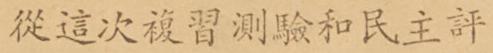從這次複習測驗和民族評
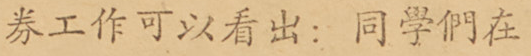券工作可以看出：同學們在
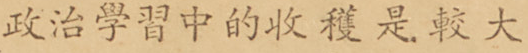政治學習中的收穫是較大
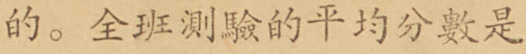的。全半測驗的平均分數是
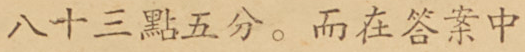八十三點五分。而在答案中
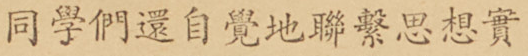同學們還自覺地聯繫思想實
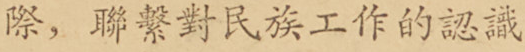際，聯繫對民族工作的認識
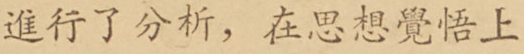進行了分析，在思想覺悟上
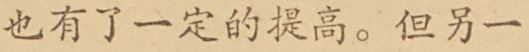也有了一定的提高。但另一
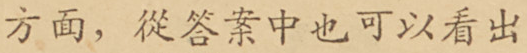方面，從答案中也可以看出
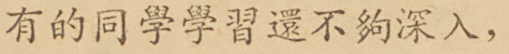有的同學學習還不夠深入，
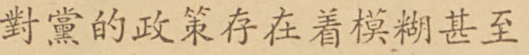對黨的政策存在着模糊甚至
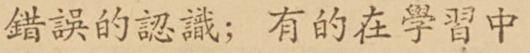錯誤的認識；有的在學習中
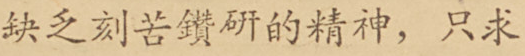缺乏刻苦鑽研的精神，只求
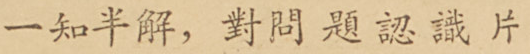一知半解，對問題認識片
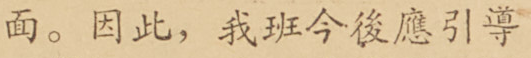面。因此，我班今後應引導
